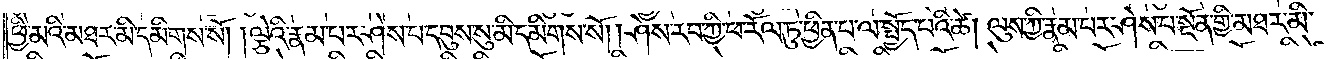ཕྱི་མའི་མཐར་མི་དམིགས་སོ། །ལྕེའི་རྣམ་པར་ཤེས་པ་དབུས་སུ་མི་དམིགས་སོ། །ཤེས་རབ་ཀྱི་ཕ་རོལ་ཏུ་ཕྱིན་པ་ལ་སྤྱོད་པའི་ཚེ། ལུས་ཀྱི་རྣམ་པར་ཤེས་པ་སྔོན་གྱི་མཐར་མི་
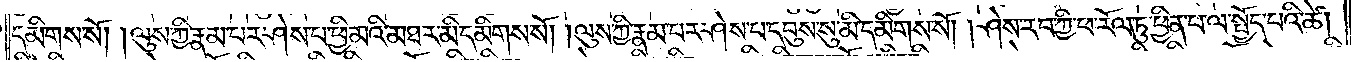དམིགས་སོ། །ལུས་ཀྱི་རྣམ་པར་ཤེས་པ་ཕྱི་མའི་མཐར་མི་དམིགས་སོ། །ལུས་ཀྱི་རྣམ་པར་ཤེས་པ་དབུས་སུ་མི་དམིགས་སོ། །ཤེས་རབ་ཀྱི་ཕ་རོལ་ཏུ་ཕྱིན་པ་ལ་སྤྱོད་པའི་ཚེ།
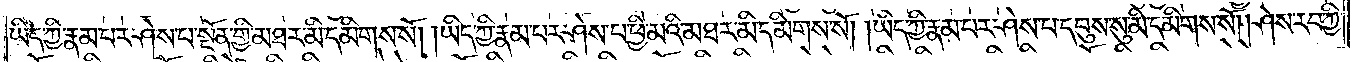ཡིད་ཀྱི་རྣམ་པར་ཤེས་པ་སྔོན་གྱི་མཐར་མི་དམིགས་སོ། །ཡིད་ཀྱི་རྣམ་པར་ཤེས་པ་ཕྱི་མའི་མཐར་མི་དམིགས་སོ། །ཡིད་ཀྱི་རྣམ་པར་ཤེས་པ་དབུས་སུ་མི་དམིགས་སོ། །ཤེས་རབ་ཀྱི་
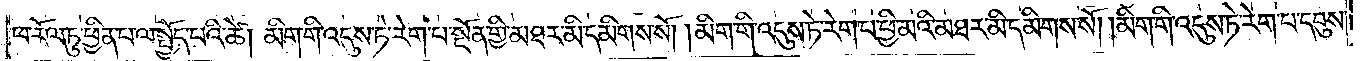ཕ་རོལ་ཏུ་ཕྱིན་པ་ལ་སྤྱོད་པའི་ཚེ། མིག་གི་འདུས་ཏེ་རེག་པ་སྔོན་གྱི་མཐར་མི་དམིགས་སོ། །མིག་གི་འདུས་ཏེ་རེག་པ་ཕྱི་མའི་མཐར་མི་དམིགས་སོ། །མིག་གི་འདུས་ཏེ་རེག་པ་དབུས་
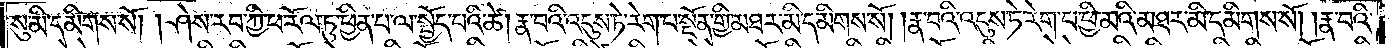སུ་མི་དམིགས་སོ། །ཤེས་རབ་ཀྱི་ཕ་རོལ་ཏུ་ཕྱིན་པ་ལ་སྤྱོད་པའི་ཚེ། རྣ་བའི་འདུས་ཏེ་རེག་པ་སྔོན་གྱི་མཐར་མི་དམིགས་སོ། །རྣ་བའི་འདུས་ཏེ་རེག་པ་ཕྱི་མའི་མཐར་མི་དམིགས་སོ། །རྣ་བའི་
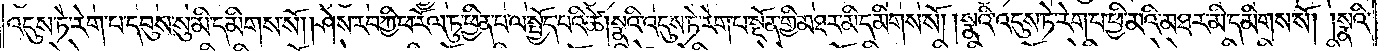འདུས་ཏེ་རེག་པ་དབུས་སུ་མི་དམིགས་སོ། །ཤེས་རབ་ཀྱི་ཕ་རོལ་ཏུ་ཕྱིན་པ་ལ་སྤྱོད་པའི་ཚེ། སྣའི་འདུས་ཏེ་རེག་པ་སྔོན་གྱི་མཐར་མི་དམིགས་སོ། །སྣའི་འདུས་ཏེ་རེག་པ་ཕྱི་མའི་མཐར་མི་དམིགས་སོ། །སྣའི་
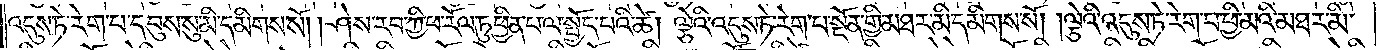འདུས་ཏེ་རེག་པ་དབུས་སུ་མི་དམིགས་སོ། །ཤེས་རབ་ཀྱི་ཕ་རོལ་ཏུ་ཕྱིན་པ་ལ་སྤྱོད་པའི་ཚེ། ལྕེའི་འདུས་ཏེ་རེག་པ་སྔོན་གྱི་མཐར་མི་དམིགས་སོ། །ལྕེའི་འདུས་ཏེ་རེག་པ་ཕྱི་མའི་མཐར་མི་
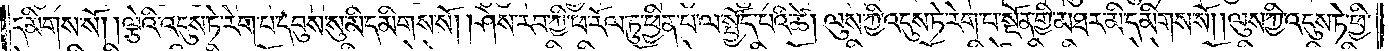དམིགས་སོ། །ལྕེའི་འདུས་ཏེ་རེག་པ་དབུས་སུ་མི་དམིགས་སོ། །ཤེས་རབ་ཀྱི་ཕ་རོལ་ཏུ་ཕྱིན་པ་ལ་སྤྱོད་པའི་ཚེ། ལུས་ཀྱི་འདུས་ཏེ་རེག་པ་སྔོན་གྱི་མཐར་མི་དམིགས་སོ། །ལུས་ཀྱི་འདུས་ཏེ་ཕྱི་
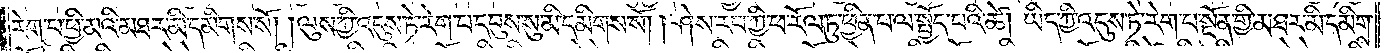རེག་པ་ཕྱི་མའི་མཐར་མི་དམིགས་སོ། །ལུས་ཀྱི་འདུས་ཏེ་རེག་པ་དབུས་སུ་མི་དམིགས་སོ། །ཤེས་རབ་ཀྱི་ཕ་རོལ་ཏུ་ཕྱིན་པ་ལ་སྤྱོད་པའི་ཚེ། ཡིད་ཀྱི་འདུས་ཏེ་རེག་པ་སྔོན་གྱི་མཐར་མི་དམིགས་
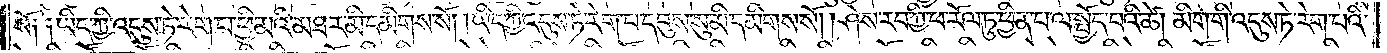སོ༑ ༑ཡིད་ཀྱི་འདུས་ཏེ་རེག་པ་ཕྱི་མའི་མཐར་མི་དམིགས་སོ། །ཡིད་ཀྱི་འདུས་ཏེ་རེག་པ་དབུས་སུ་མི་དམིགས་སོ། །ཤེས་རབ་ཀྱི་ཕ་རོལ་ཏུ་ཕྱིན་པ་ལ་སྤྱོད་པའི་ཚེ། མིག་གི་འདུས་ཏེ་རེག་པའི་
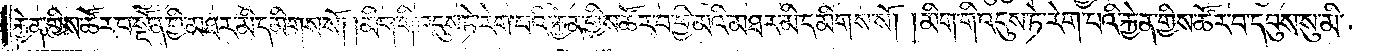རྐྱེན་གྱིས་ཚོར་བ་སྔོན་གྱི་མཐར་མི་དམིགས་སོ། །མིག་གི་འདུས་ཏེ་རེག་པའི་རྐྱེན་གྱིས་ཚོར་བ་ཕྱི་མའི་མཐར་མི་དམིགས་སོ། །མིག་གི་འདུས་ཏེ་རེག་པའི་རྐྱེན་གྱིས་ཚོར་བ་དབུས་སུ་མི་
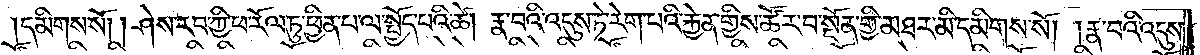དམིགས་སོ། །ཤེས་རབ་ཀྱི་ཕ་རོལ་ཏུ་ཕྱིན་པ་ལ་སྤྱོད་པའི་ཚེ། རྣ་བའི་འདུས་ཏེ་རེག་པའི་རྐྱེན་གྱིས་ཚོར་བ་སྔོན་གྱི་མཐར་མི་དམིགས་སོ། །རྣ་བའི་འདུས་
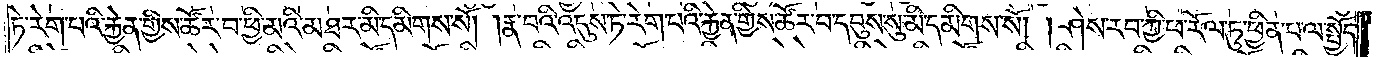ཏེ་རེག་པའི་རྐྱེན་གྱིས་ཚོར་བ་ཕྱི་མའི་མཐར་མི་དམིགས་སོ། །རྣ་བའི་འདུས་ཏེ་རེག་པའི་རྐྱེན་གྱིས་ཚོར་བ་དབུས་སུ་མི་དམིགས་སོ། །ཤེས་རབ་ཀྱི་ཕ་རོལ་ཏུ་ཕྱིན་པ་ལ་སྤྱོད་
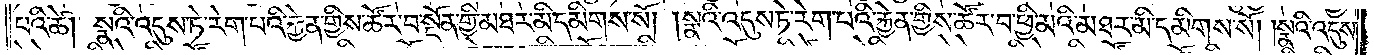པའི་ཚེ། སྣའི་འདུས་ཏེ་རེག་པའི་རྐྱེན་གྱིས་ཚོར་བ་སྔོན་གྱི་མཐར་མི་དམིགས་སོ། །སྣའི་འདུས་ཏེ་རེག་པའི་རྐྱེན་གྱིས་ཚོར་བ་ཕྱི་མའི་མཐར་མི་དམིགས་སོ། །སྣའི་འདུས་
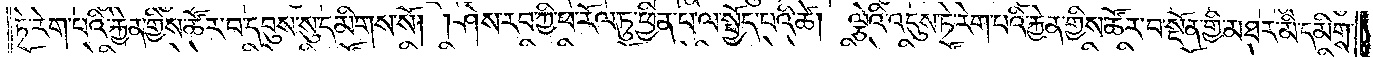ཏེ་རེག་པའི་རྐྱེན་གྱིས་ཚོར་བ་དབུས་སུ་མི་དམིགས་སོ། །ཤེས་རབ་ཀྱི་ཕ་རོལ་ཏུ་ཕྱིན་པ་ལ་སྤྱོད་པའི་ཚེ། ལྕེའི་འདུས་ཏེ་རེག་པའི་རྐྱེན་གྱིས་ཚོར་བ་སྔོན་གྱི་མཐར་མི་དམིགས་
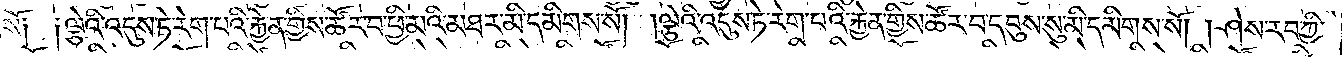སོ༑ ༑ལྕེའི་འདུས་ཏེ་རེག་པའི་རྐྱེན་གྱིས་ཚོར་བ་ཕྱི་མའི་མཐར་མི་དམིགས་སོ། །ལྕེའི་འདུས་ཏེ་རེག་པའི་རྐྱེན་གྱིས་ཚོར་བ་དབུས་སུ་མི་དམིགས་སོ། །ཤེས་རབ་ཀྱི་
